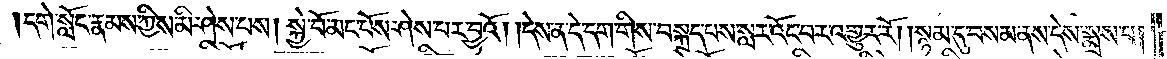དགེ་སློང་རྣམས་ཀྱིས་མི་ཤེས་པས། སྐྱེ་བོ་མང་པོས་ཤེས་པར་བྱའོ། །དེས་ན་དེ་དག་གིས་བསྐྲད་པས་སླར་འོང་བར་འགྱུར་རོ། །སྙམ་དུ་བསམ་ནས་དེས་སྨྲས་པ།
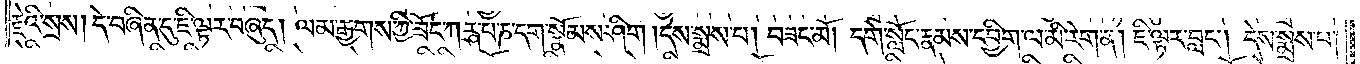རྗེའི་སྲས། དེ་བཞིན་དུ་ཇི་ལྟར་བཞུད། ལམ་རྒྱགས་ཀྱི་ཟོང་ཀཪྴ་པ་ཎ་དག་སྣོམས་ཤིག །དེས་སྨྲས་པ། བཟང་མོ། དགེ་སློང་རྣམས་དབྱིག་ལ་མི་རེག་ན། ཇི་ལྟར་བླང༌། དེས་སྨྲས་པ།
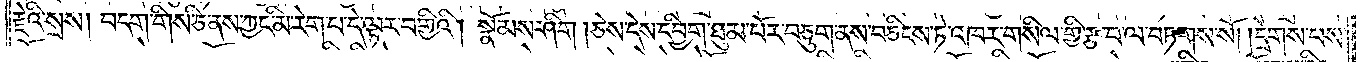རྗེའི་སྲས། བདག་གིས་ཅི་ནས་ཀྱང་མི་རེག་པ་དེ་ལྟར་བགྱིའི། སྣོམས་ཤིག །ཅེས་དེས་དབྱིག་ཐུམ་པོར་བཅུག་ནས་བཅིངས་ཏེ་འཁར་གསིལ་གྱི་རྩ་བ་ལ་བཏགས་སོ། །དྲེགས་པས་
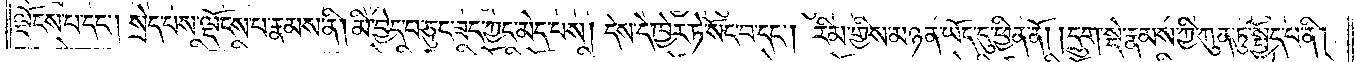ལྡོངས་པ་དང༌། སྲེད་པས་ལྡོངས་པ་རྣམས་ནི། མི་བྱེད་པ་ཅུང་ཟད་ཀྱང་མེད་པས། དེས་དེ་ཁྱེར་ཏེ་སོང་བ་དང༌། རིམ་གྱིས་མཉན་ཡོད་དུ་ཕྱིན་ནོ། །དྲུག་སྡེ་རྣམས་ཀྱི་ཀུན་ཏུ་སྤྱོད་པ་ནི།
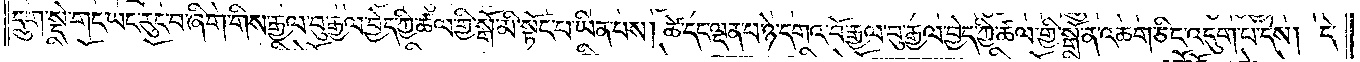དྲུག་སྡེ་གང་ཡང་རུང་བ་ཞིག་གིས་རྒྱལ་བུ་རྒྱལ་བྱེད་ཀྱི་ཚལ་གྱི་སྒོ་མི་སྟོང་པ་ཡིན་པས། ཚེ་དང་ལྡན་པ་ཉེ་དགའ་བོ་རྒྱལ་བུ་རྒྱལ་བྱེད་ཀྱི་ཚལ་གྱི་སྒོ་ན་འཆག་ཅིང་འདུག་པ་དེས། དེ་
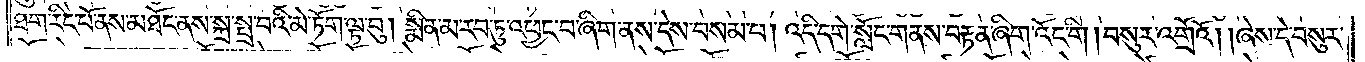ཐག་རིང་པོ་ནས་མཐོང་ནས་སྐྲ་སྤྲ་བའི་མེ་ཏོག་ལྟ་བུ། སྨིན་མ་རབ་ཏུ་འཕྱང་བ་ཞིག་ནས་དེས་བསམ་པ། འདི་དགེ་སློང་གནས་བརྟན་ཞིག་འོང་གི། །བསུར་འགྲོའོ། །ཞེས་དེ་བསུར་
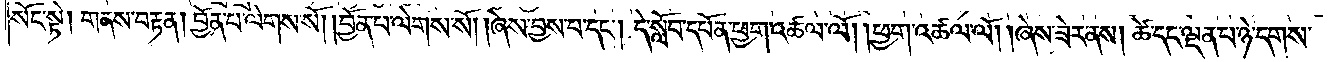སོང་སྟེ། གནས་བརྟན་།བྱོན་པ་ལེགས་སོ། །བྱོན་པ་ལེགས་སོ། །ཞེས་བྱས་པ་དང༌། དེ་སློབ་དཔོན་ཕྱག་འཚལ་ལོ། །ཕྱག་འཚལ་ལོ། །ཞེས་ཟེར་ནས། ཚེ་དང་ལྡན་པ་ཉེ་དགས་
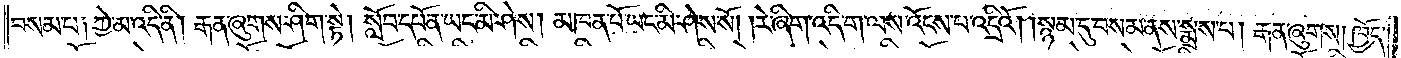བསམ་པ། ཀྱེ་མ་འདི་ནི། རྒན་ཞུགས་ཤིག་སྟེ། སློབ་དཔོན་ཡང་མི་ཤེས། མཁན་པོ་ཡང་མི་ཤེས་སོ། །རེ་ཞིག་འདི་ག་ལས་འོངས་པ་འདྲིའོ། །སྙམ་དུ་བསམ་ནས་སྨྲས་པ། རྒན་ཞུགས། ཁྱོད་
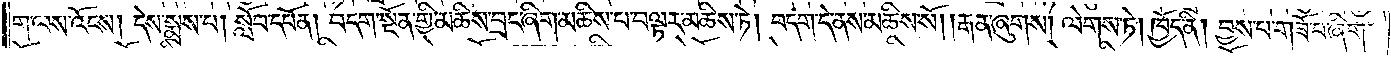ག་ལས་འོངས། དེས་སྨྲས་པ། སློབ་དཔོན། བདག་སྔོན་གྱི་མཆིས་བྲང་ཞིག་མཆིས་པ་བལྟར་མཆིས་ཏེ། བདག་དེ་ནས་མཆིས་སོ། །རྒན་ཞུགས། ལེགས་ཏེ། ཁྱོད་ནི། བྱས་པ་གཟོ་བ་ཞིག་
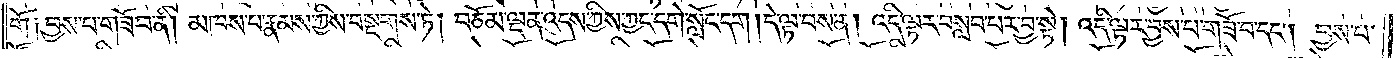གོ༑ བྱས་པ་གཟོ་བ་ནི། མཁས་པ་རྣམས་ཀྱིས་བསྔགས་ཏེ། བཅོམ་ལྡན་འདས་ཀྱིས་ཀྱང་དགེ་སློང་དག །དེ་ལྟ་བས་ན། འདི་ལྟར་བསླབ་པར་བྱ་སྟེ། འདི་ལྟར་བྱས་པ་གཟོ་བ་དང༌། བྱས་པ་
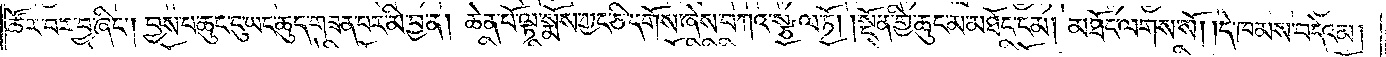ཚོར་བར་བྱ་ཞིང༌། བྱས་པ་ཆུང་ངུ་ཡང་ཆུད་གཟན་པར་མི་བྱ་ན། ཆེན་པོ་ལྟ་སྨོས་ཀྱང་ཅི་དགོས་ཞེས་བཀའ་སྩལ་ཏོ། །སྔོན་གྱི་ཆུང་མ་མཐོང་ངམ། མཐོང་ལགས་སོ། །དེ་ཁམས་བདེའམ།
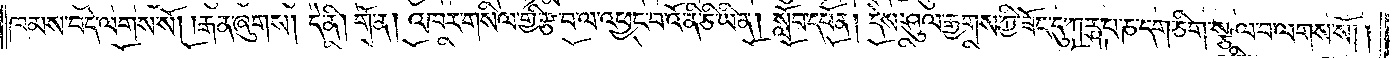ཁམས་བདེ་ལགས་སོ། །རྒན་ཞུགས། དེ་ནི། གོ་ན། འཁར་གསིལ་གྱི་རྩ་བ་ལ་འཕྱང་བའོ་ནི་ཅི་ཡིན། སློབ་དཔོན། དེས་ཤུལ་རྒྱགས་ཀྱི་ཟོང་དུ་ཀཪྴ་པ་ཎ་དག་ཅིག་སྩལ་བ་ལགས་སོ། །
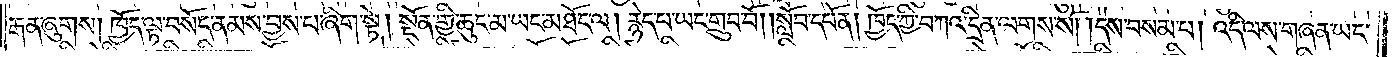རྒན་ཞུགས། ཁྱོད་ལྟ་བསོད་ནམས་བྱས་པ་ཞིག་སྟེ། སྔོན་གྱི་ཆུང་མ་ཡང་མཐོང་ལ། རྙེད་པ་ཡང་གྲུབ་བོ། །སློབ་དཔོན། ཁྱོད་ཀྱི་བཀའ་དྲིན་ལགས་སོ། །དེས་བསམ་པ། འདི་ལས་གཞན་ཡང་
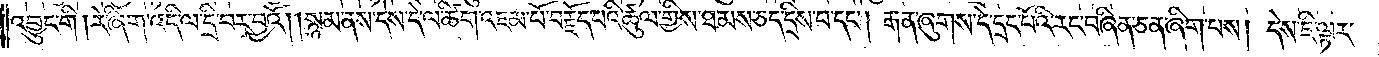འབྱུང་གི ། རེ་ཞིག་འདི་ལ་དྲི་བར་བྱའོ། །སྙམ་ནས་དེས་དེ་ལ་ཚིག་འཇམ་པོ་བརྗོད་པའི་ཚུལ་གྱིས་ཐམས་ཅད་དྲིས་པ་དང༌། རྒན་ཞུགས་དེ་དྲང་པོའི་རང་བཞིན་ཅན་ཞིག་པས། དེས་ཇི་ལྟར་
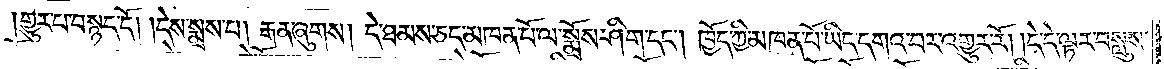གྱུར་པ་བསྙད་དོ། །དེས་སྨྲས་པ། རྒན་ཞུགས། དེ་ཐམས་ཅད་མཁན་པོ་ལ་སྨྲོས་ཤིག་དང༌། ཁྱོད་ཀྱི་མཁན་པོ་ཡིད་དགའ་བར་འགྱུར་རོ། །དེ་དེ་ལྟར་བསླུས་
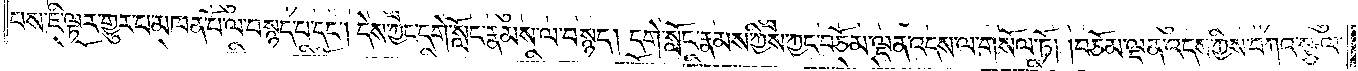པས་ཇི་ལྟར་གྱུར་པ་མཁན་པོ་ལ་བསྙད་པ་དང༌། དེས་ཀྱང་དགེ་སློང་རྣམས་ལ་བསྙད། དགེ་སློང་རྣམས་ཀྱིས་ཀྱང་བཅོམ་ལྡན་འདས་ལ་གསོལ་ཏོ། །བཅོམ་ལྡན་འདས་ཀྱིས་བཀའ་སྩལ་
